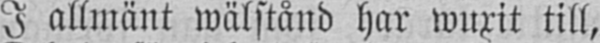I allmänt wälstånd har wuxit till,
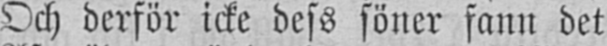Och derför icke dess söner fann det
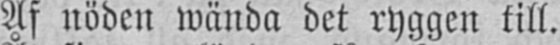Af nöden wända det ryggen till.
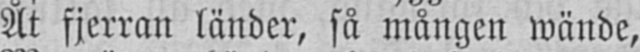Åt fjerran länder, så mången wände,
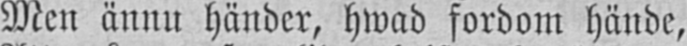Men ännu händer, hwad fordom hände,
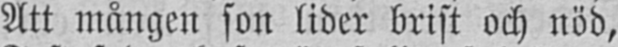Att mången son lider brist och nöd,
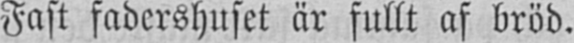Fast fadershuset är fullt af bröd.
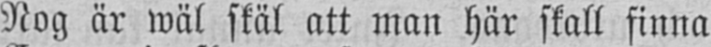Nog är wäl skäl att man här skall finna
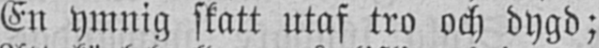En ymnig skatt utaf tro och dygd;
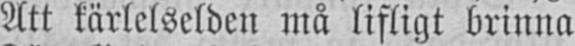Att kärlelselden må lifligt brinna
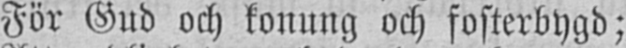För Gud och konung och fosterbygd;
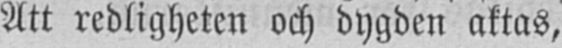Att redligheten och dygden aktas,
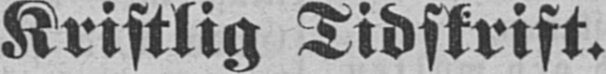Kristlig Tidskrift.
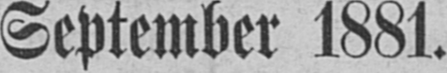September 1881.
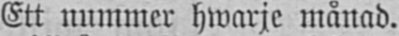Ett nummer hwarje månad.
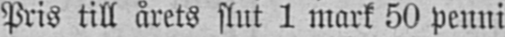Pris till årets slut 1 mark 50 penni.
